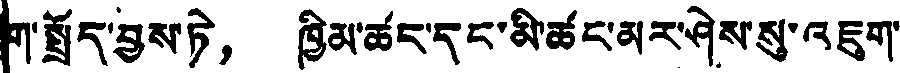ག་སྤྲོད་བྱས་ཏེ， ཁྱིམ་ཚང་དང་མི་ཚང་མར་ཤེས་སུ་འཇུག་
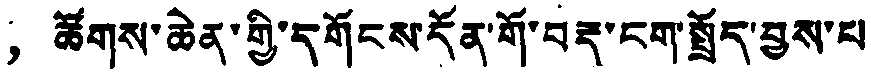，ཚོགས་ཆེན་གྱི་དགོངས་དོན་གོ་བརྡ་ངག་སྤྲོད་བྱས་པ
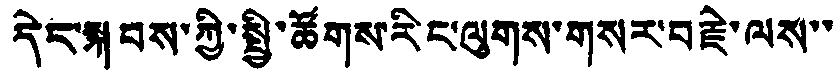དེང་སྐབས་ཀྱི་སྤྱི་ཚོགས་རིང་ལུགས་གསར་བརྗེ་ལས་་
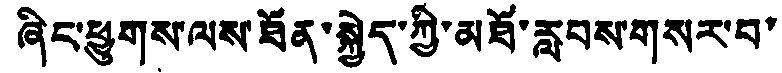ཞིང་ཕྱུགས་ལས་ཐོན་སྐྱེད་ཀྱི་མཐོ་རླབས་གསར་བ་
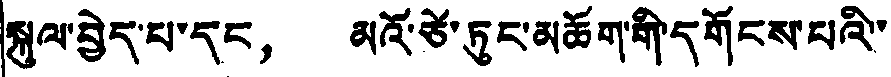སྐུལ་བྱེད་པ་དང， མའོ་ཙེ་ཏུང་མཆོག་གི་དགོངས་པའི་་
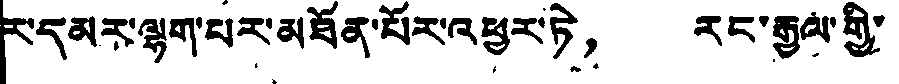ར་དམར་ལྷག་པར་མཐོན་པོར་འཕྱར་ཏེ， རང་རྒྱལ་གྱི་
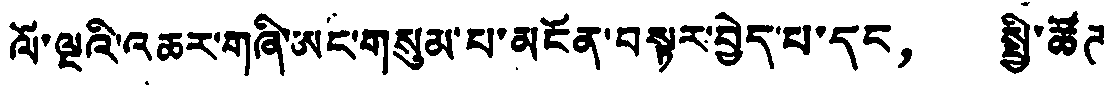ལོ་ལྔའི་འཆར་གཞི་ཨང་གསུམ་པ་མངོན་བསྟར་བྱེད་པ་དང， སྤྱི་ཚོཊ
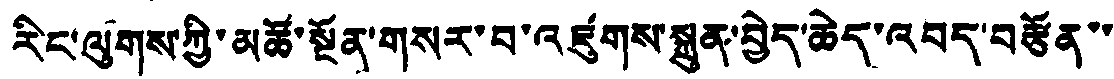རིང་ལུགས་ཀྱི་མཚོ་སྔོན་གསར་བ་འཛུགས་སྐྲུན་བྱེད་ཆེད་འབད་བརྩོན་་
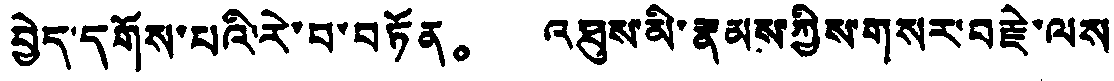བྱེད་དགོས་པའི་རེ་བ་བཏོན。 འཐུས་མི་རྣམས་ཀྱིས་གསར་བརྗེ་ལས
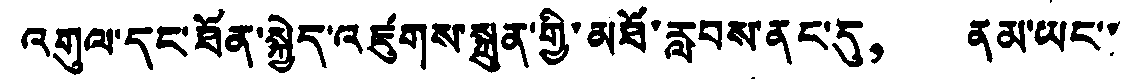འགུལ་དང་ཐོན་སྐྱེད་འཛུགས་སྐྲུན་གྱི་མཐོ་རླབས་ནང་དུ， ནམ་ཡང་་
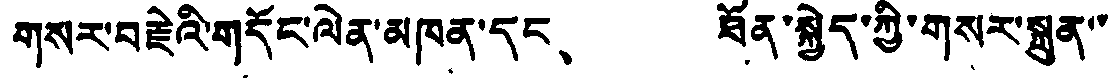གསར་བརྗེའི་གདོང་ལེན་མཁན་དང、 ཐོན་སྐྱེད་ཀྱི་གསར་སྐྲུན་་
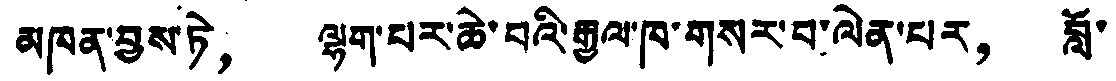མཁན་བྱས་ཏེ， ལྷག་པར་ཆེ་བའི་རྒྱལ་ཁ་གསར་བ་ལེན་པར， བློ་
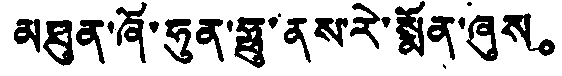མཐུན་ཞོ་ཧུན་ཧྥུ་ནས་རེ་སྨོན་ཞུས。
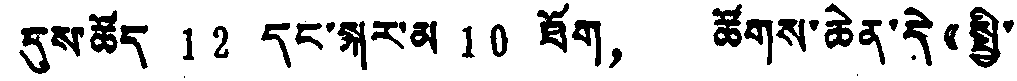དུས་ཚོད 12 དང་སྐར་མ 10 ཐོག， ཚོགས་ཆེན་དེ《སྤྱི་
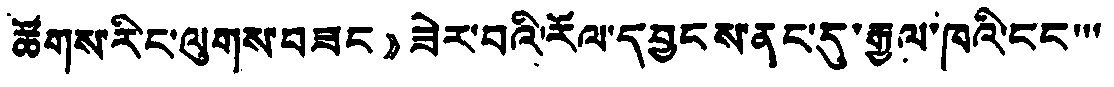ཚོགས་རིང་ལུགས་བཟང》ཟེར་བའི་རོལ་དབྱངས་ནང་དུ་རྒྱལ་ཁའི་ངང་་་
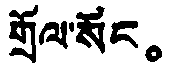གྲོལ་སོང。
